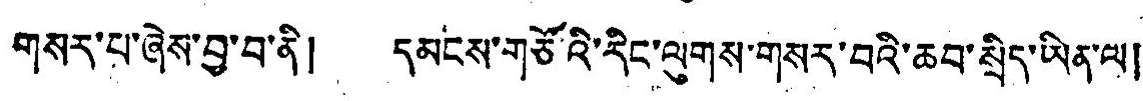གསར་པ་ཞེས་བྱ་བ་ནི། དམངས་གཙོའི་རིང་ལུགས་གསར་བའི་ཆབ་སྲིད་ཡིན་ལ།
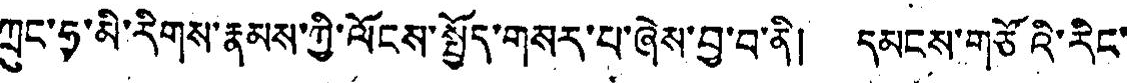ཀྲུང་ཧྭ་མི་རིགས་རྣམས་ཀྱི་ལོངས་སྤྱོད་གསར་པ་ཞེས་བྱ་བ་ནི། དམངས་གཙོའི་རིང་
